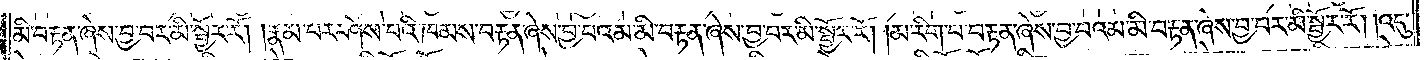མི་བརྟན་ཞེས་བྱ་བར་མི་སྦྱོར་རོ། །རྣམ་པར་ཤེས་པའི་ཁམས་བརྟན་ཞེས་བྱ་བའམ་མི་བརྟན་ཞེས་བྱ་བར་མི་སྦྱོར་རོ། །མ་རིག་པ་བརྟན་ཞེས་བྱ་བའམ་མི་བརྟན་ཞེས་བྱ་བར་མི་སྦྱོར་རོ། །འདུ་
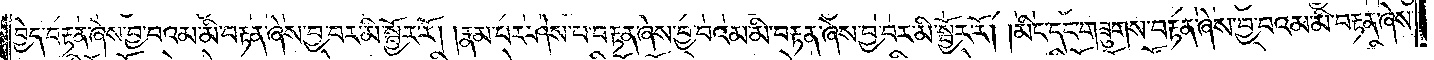བྱེད་བརྟན་ཞེས་བྱ་བའམ་མི་བརྟན་ཞེས་བྱ་བར་མི་སྦྱོར་རོ། །རྣམ་པར་ཤེས་པ་བརྟན་ཞེས་བྱ་བའམ་མི་བརྟན་ཞེས་བྱ་བར་མི་སྦྱོར་རོ། །མིང་དང་གཟུགས་བརྟན་ཞེས་བྱ་བའམ་མི་བརྟན་ཞེས་
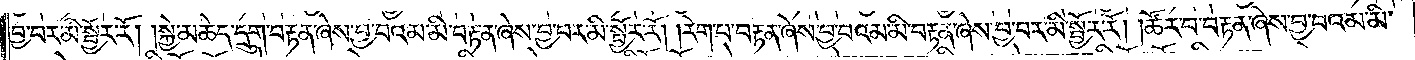བྱ་བར་མི་སྦྱོར་རོ། །སྐྱེ་མཆེད་དྲུག་བརྟན་ཞེས་བྱ་བའམ་མི་བརྟན་ཞེས་བྱ་བར་མི་སྦྱོར་རོ། །རེག་པ་བརྟན་ཞེས་བྱ་བའམ་མི་བརྟན་ཞེས་བྱ་བར་མི་སྦྱོར་རོ། །ཚོར་བ་བརྟན་ཞེས་བྱ་བའམ་མི་
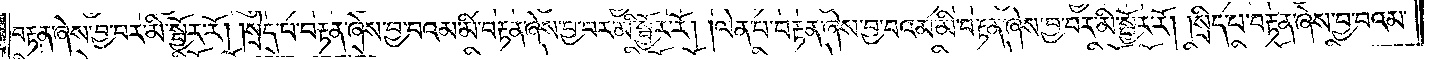བརྟན་ཞེས་བྱ་བར་མི་སྦྱོར་རོ། །སྲེད་པ་བརྟན་ཞེས་བྱ་བའམ་མི་བརྟན་ཞེས་བྱ་བར་མི་སྦྱོར་རོ། །ལེན་པ་བརྟན་ཞེས་བྱ་བའམ་མི་བརྟན་ཞེས་བྱ་བར་མི་སྦྱོར་རོ། །སྲིད་པ་བརྟན་ཞེས་བྱ་བའམ་
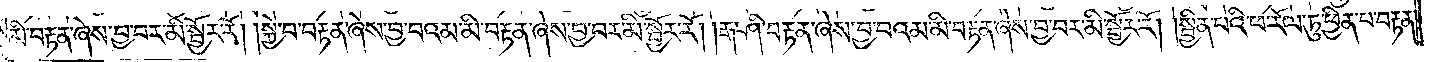མི་བརྟན་ཞེས་བྱ་བར་མི་སྦྱོར་རོ། །སྐྱེ་བ་བརྟན་ཞེས་བྱ་བའམ་མི་བརྟན་ཞེས་བྱ་བར་མི་སྦྱོར་རོ། །རྒ་ཤི་བརྟན་ཞེས་བྱ་བའམ་མི་བརྟན་ཞེས་བྱ་བར་མི་སྦྱོར་རོ། །སྦྱིན་པའི་ཕ་རོལ་ཏུ་ཕྱིན་པ་བརྟན་
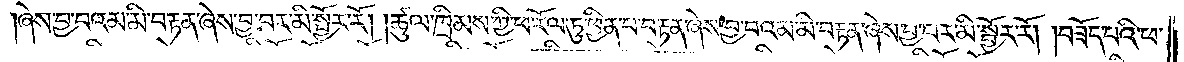ཞེས་བྱ་བའམ་མི་བརྟན་ཞེས་བྱ་བར་མི་སྦྱོར་རོ། །ཚུལ་ཁྲིམས་ཀྱི་ཕ་རོལ་ཏུ་ཕྱིན་པ་བརྟན་ཞེས་བྱ་བའམ་མི་བརྟན་ཞེས་བྱ་བར་མི་སྦྱོར་རོ། །བཟོད་པའི་ཕ་
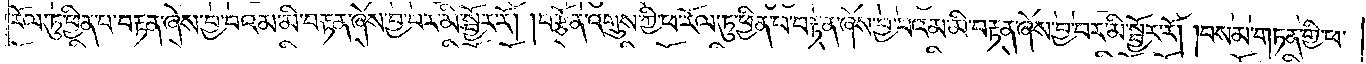རོལ་ཏུ་ཕྱིན་པ་བརྟན་ཞེས་བྱ་བའམ་མི་བརྟན་ཞེས་བྱ་བར་མི་སྦྱོར་རོ། །བརྩོན་འགྲུས་ཀྱི་ཕ་རོལ་ཏུ་ཕྱིན་པ་བརྟན་ཞེས་བྱ་བའམ་མི་བརྟན་ཞེས་བྱ་བར་མི་སྦྱོར་རོ། །བསམ་གཏན་གྱི་ཕ་
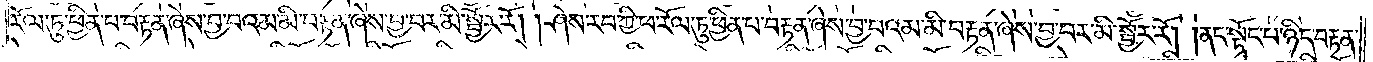རོལ་ཏུ་ཕྱིན་པ་བརྟན་ཞེས་བྱ་བའམ་མི་བརྟན་ཞེས་བྱ་བར་མི་སྦྱོར་རོ། །ཤེས་རབ་ཀྱི་ཕ་རོལ་ཏུ་ཕྱིན་པ་བརྟན་ཞེས་བྱ་བའམ་མི་བརྟན་ཞེས་བྱ་བར་མི་སྦྱོར་རོ། །ནང་སྟོང་པ་ཉིད་བརྟན་
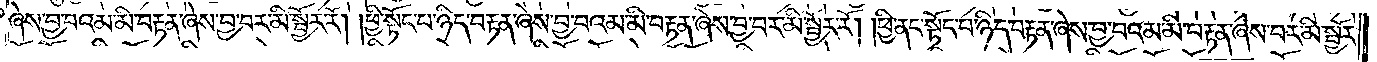ཞེས་བྱ་བའམ་མི་བརྟན་ཞེས་བྱ་བར་མི་སྦྱོར་རོ། །ཕྱི་སྟོང་པ་ཉིད་བརྟན་ཞེས་བྱ་བའམ་མི་བརྟན་ཞེས་བྱ་བར་མི་སྦྱོར་རོ། །ཕྱི་ནང་སྟོང་པ་ཉིད་བརྟན་ཞེས་བྱ་བའམ་མི་བརྟན་ཞེས་བར་མི་སྦྱོར་
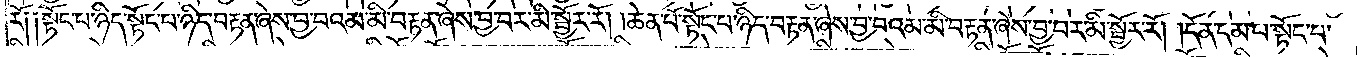རོ༑ ༑སྟོང་པ་ཉིད་སྟོང་པ་ཉིད་བརྟན་ཞེས་བྱ་བའམ་མི་བརྟན་ཞེས་བྱ་བར་མི་སྦྱོར་རོ། །ཆེན་པོ་སྟོང་པ་ཉིད་བརྟན་ཞེས་བྱ་བའམ་མི་བརྟན་ཞེས་བྱ་བར་མི་སྦྱོར་རོ། །དོན་དམ་པ་སྟོང་པ་
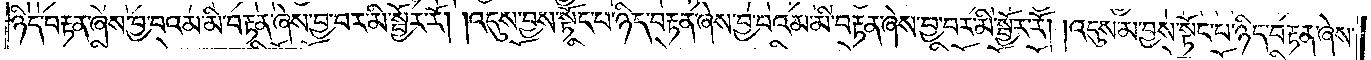ཉིད་བརྟན་ཞེས་བྱ་བའམ་མི་བརྟན་ཞེས་བྱ་བར་མི་སྦྱོར་རོ། །འདུས་བྱས་སྟོང་པ་ཉིད་བརྟན་ཞེས་བྱ་བའམ་མི་བརྟན་ཞེས་བྱ་བར་མི་སྦྱོར་རོ། །འདུས་མ་བྱས་སྟོང་པ་ཉིད་བརྟན་ཞེས་
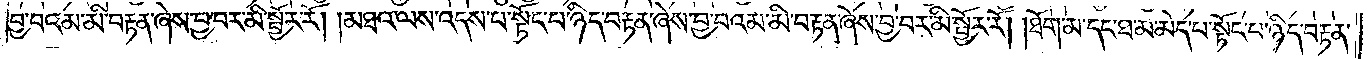བྱ་བའམ་མི་བརྟན་ཞེས་བྱ་བར་མི་སྦྱོར་རོ། །མཐའ་ལས་འདས་པ་སྟོང་པ་ཉིད་བརྟན་ཞེས་བྱ་བའམ་མི་བརྟན་ཞེས་བྱ་བར་མི་སྦྱོར་རོ། །ཐོག་མ་དང་ཐ་མ་མེད་པ་སྟོང་པ་ཉིད་བརྟན་
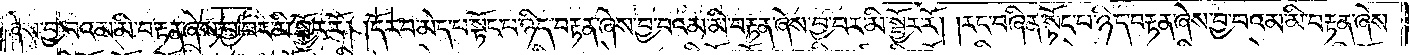ཞེས་བྱ་བའམ་མི་བརྟན་ཞེས་བྱ་བར་མི་སྦྱོར་རོ། །དོར་བ་མེད་པ་སྟོང་པ་ཉིད་བརྟན་ཞེས་བྱ་བའམ་མི་བརྟན་ཞེས་བྱ་བར་མི་སྦྱོར་རོ། །རང་བཞིན་སྟོང་པ་ཉིད་བརྟན་ཞེས་བྱ་བའམ་མི་བརྟན་ཞེས་
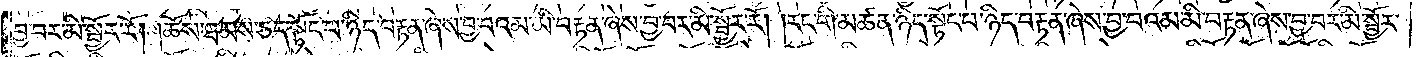བྱ་བར་མི་སྦྱོར་རོ། །ཆོས་ཐམས་ཅད་སྟོང་པ་ཉིད་བརྟན་ཞེས་བྱ་བའམ་མི་བརྟན་ཞེས་བྱ་བར་མི་སྦྱོར་རོ། །རང་གི་མཚན་ཉིད་སྟོང་པ་ཉིད་བརྟན་ཞེས་བྱ་བའམ་མི་བརྟན་ཞེས་བྱ་བར་མི་སྦྱོར་
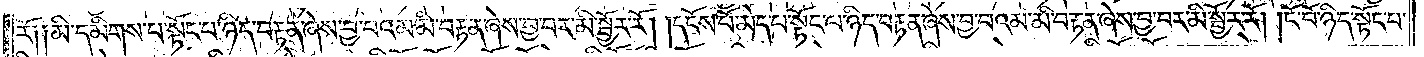རོ༑ ༑མི་དམིགས་པ་སྟོང་པ་ཉིད་བརྟན་ཞེས་བྱ་བའམ་མི་བརྟན་ཞེས་བྱ་བར་མི་སྦྱོར་རོ། །དངོས་པོ་མེད་པ་སྟོང་པ་ཉིད་བརྟན་ཞེས་བྱ་བའམ་མི་བརྟན་ཞེས་བྱ་བར་མི་སྦྱོར་རོ། །ངོ་བོ་ཉིད་སྟོང་པ་
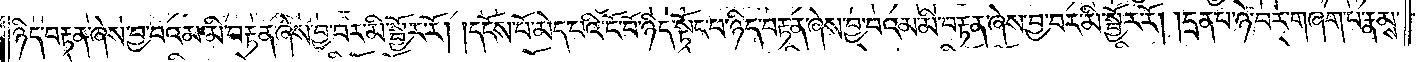ཉིད་བརྟན་ཞེས་བྱ་བའམ་མི་བརྟན་ཞེས་བྱ་བར་མི་སྦྱོར་རོ། །དངོས་པོ་མེད་པའི་ངོ་བོ་ཉིད་སྟོང་པ་ཉིད་བརྟན་ཞེས་བྱ་བའམ་མི་བརྟན་ཞེས་བྱ་བར་མི་སྦྱོར་རོ། །དྲན་པ་ཉེ་བར་གཞག་པ་རྣམས་
